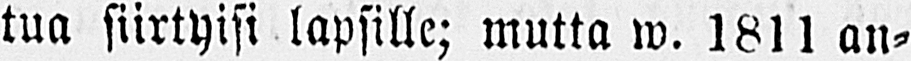tua siirtyisi lapsille; mutta w. 1811 an-
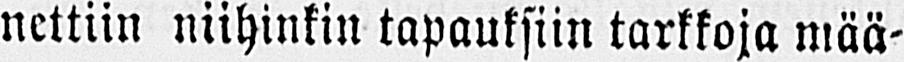nettiin niihinkin tapauksiin tarkkoja mää-
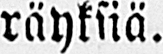räyksiä.
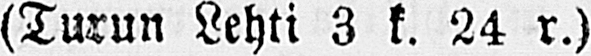(Turun Lehti 3 k. 24 r.)
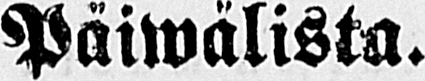Päiwälista.
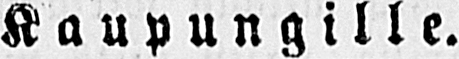Kaupungille.
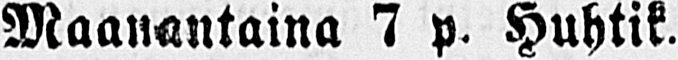Maanantaina 7 p. Huhtik.
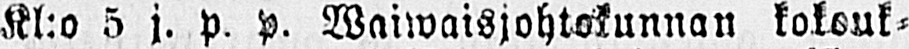Kl:o 5 j. p. p. Waiwaisjohtokunnan kokouk-
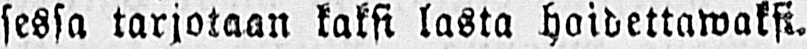sessa tarjotaan kaksi lasta hoidettawaksi.
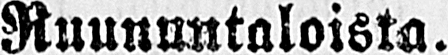Ruununtaloista.
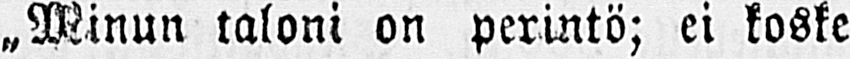„Minun taloni on perintö; ei koske
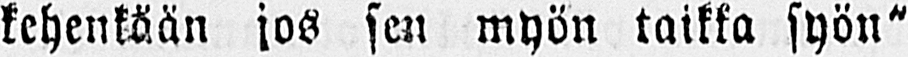kehenkään jos sen myön taikka syön"
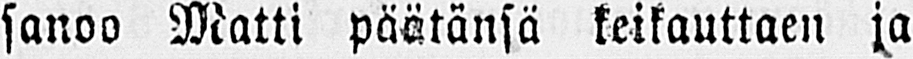sanoo Matti päätänsä keikauttaen ja
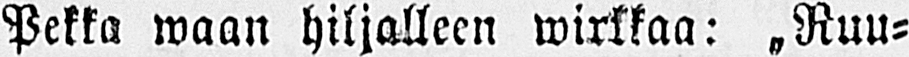Pekka waan hiljalleen wirkkaa: „Ruu-
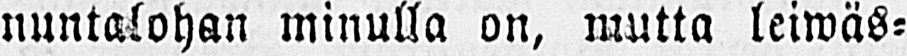nuntalohan minulla on, mutta leiwäs-
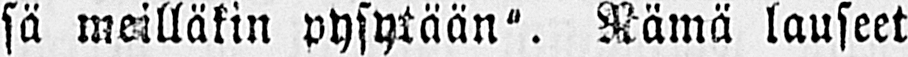sä meilläkin pysytään". Nämä lauseet
